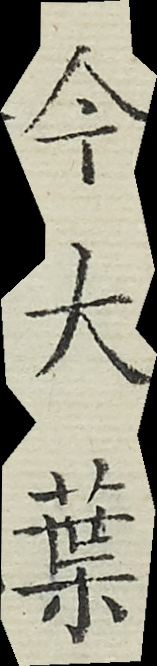今大葉
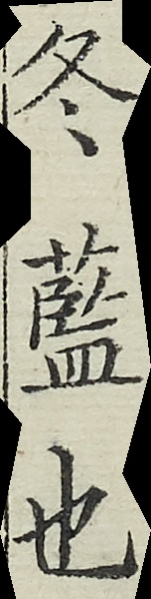冬藍也
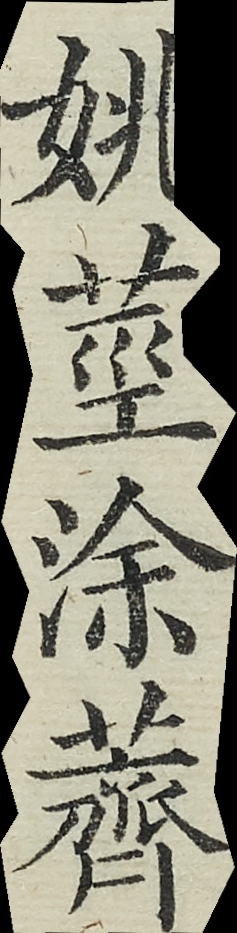姚莖塗薺
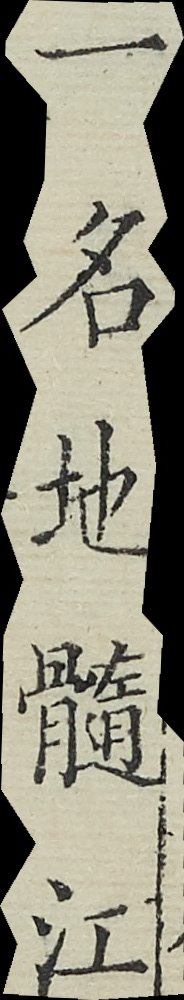一名地髓江
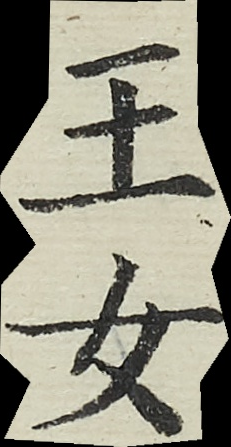王女
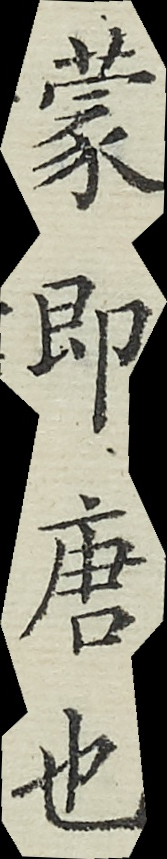蒙即唐也
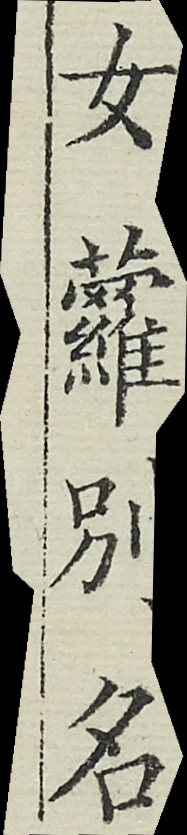女蘿別名
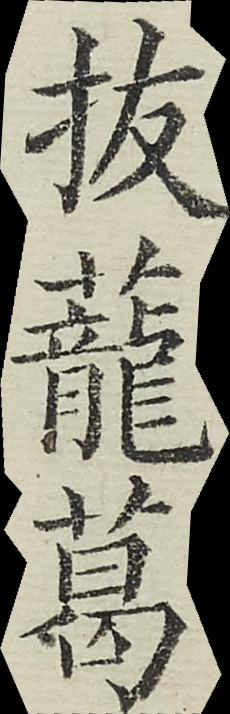拔蘢葛
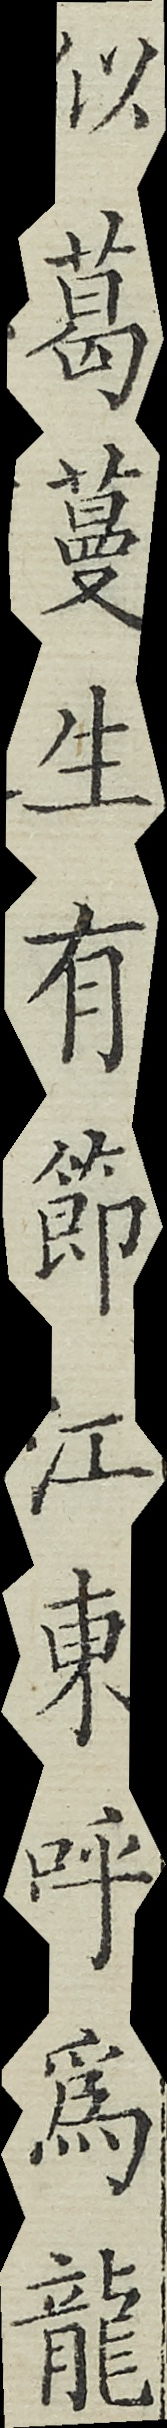似葛蔓生有節江東呼爲龍
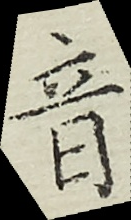音
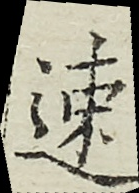速
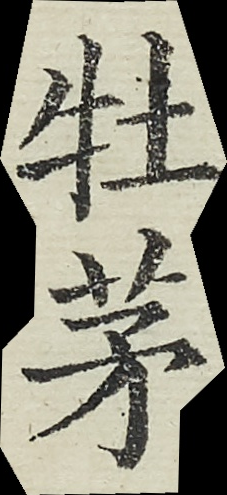牡茅
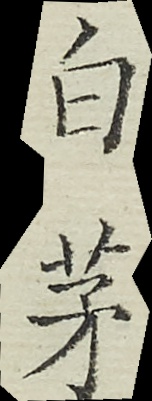曰茅
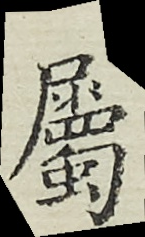屬
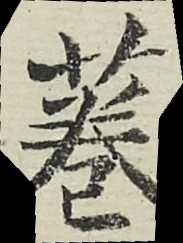菤
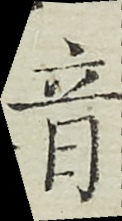音
